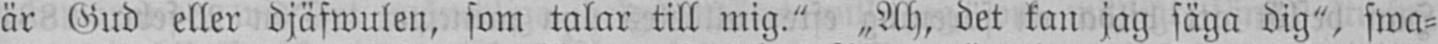är Gud eller djäfwulen, som talar till mig." „Åh, det kan jag säga dig", swa-
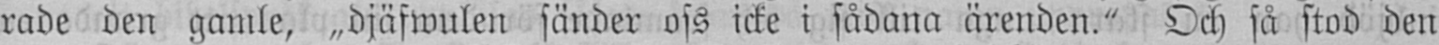rade den gamle, „djäfwulen sänder oss icke i sådana ärenden." Och så stod den
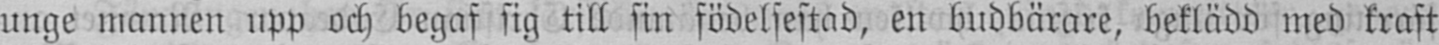unge mannen upp och begaf sig till sin födelsestad, en budbärare, beklädd med kraft
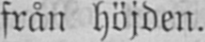från höjden.
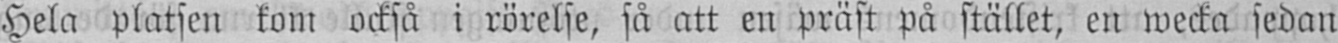Hela platsen kom också i rörelse, så att en präst på stället, en wecka sedan
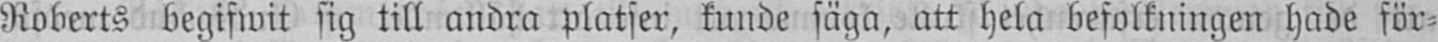Roberts begifwit sig till andra platser, kunde säga, att hela befolkningen hade för-
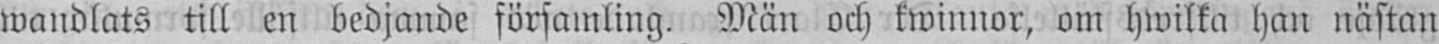wandlats till en bedjande församling. Män och kwinnor, om hwilka han nästan
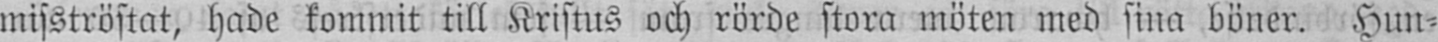misströstat, hade kommit till Kristus och rörde stora möten med sina böner. Hun-
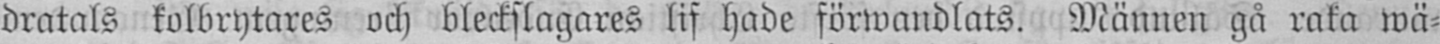dratals kolbrytares och bleckslagares lif hade förwandlats. Männen gå raka wä-
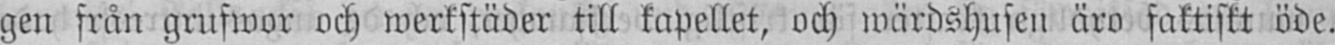gen från grufwor och werkstäder till kapellet, och wärdshusen äro faktiskt öde.
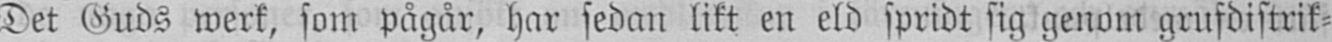Det Guds werk, som pågar, har sedan likt en eld spridt sig genom grufdistrik-
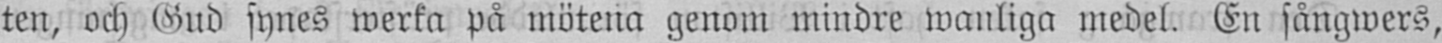ten, och Gud synes werka på mötena genom mindre wanliga medel. En sångwers,
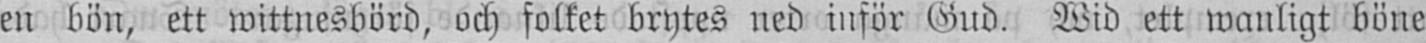en bön, ett wittnesbörd, och folket brytes ned inför Gud. Wid ett wanligt böne
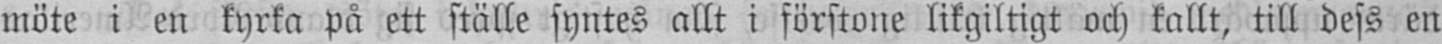möte i en kyrka på ett ställe syntes allt i förstone likgiltigt och kallt, till dess en
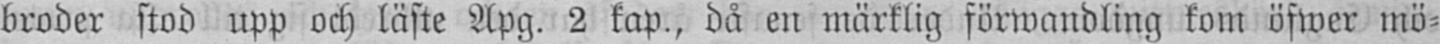broder stod upp och läste Apg, 2 kap., då en märklig förwandling kom öfwer mö-
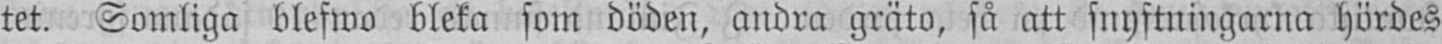tet. Somliga blefwo bleka som döden, andra gräto, så att snyftningarna hördes
